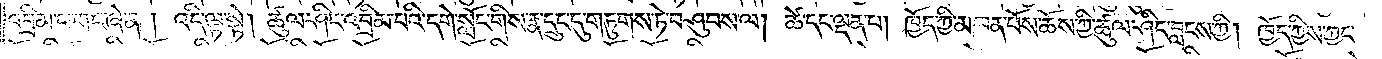འབྲིམ་པ་གང་ཞེ་ན། འདི་ལྟ་སྟེ། ཚུལ་ཤིང་འབྲིམ་པའི་དགེ་སློང་གིས་རྣ་དྲུང་དུ་གཏུགས་ཏེ་བཤུབས་ལ། ཚེ་དང་ལྡན་པ། ཁྱོད་ཀྱི་མཁན་པོས་ཆོས་ཀྱི་ཚུལ་ཤིང་བླངས་ཀྱི། ཁྱོད་ཀྱིས་ཀྱང་
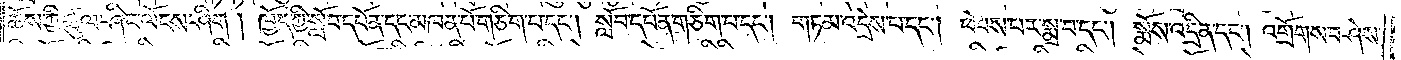ཆོས་ཀྱི་ཚུལ་ཤིང་ལོངས་ཤིག །ཁྱོད་ཀྱི་སློབ་དཔོན་དང་མཁན་པོ་གཅིག་པ་དང༌། སློབ་དཔོན་གཅིག་པ་དང༌། གཏམ་འདྲེས་པ་དང༌། ཕེབས་པར་སྨྲ་བ་དང༌། སྨོས་འདྲིན་དང༌། འགྲོགས་བཤེས་
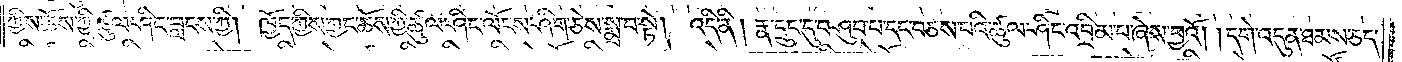ཀྱིས་ཆོས་ཀྱི་ཚུལ་ཤིང་བླངས་ཀྱི། ཁྱོད་ཀྱིས་ཀྱང་ཆོས་ཀྱི་ཚུལ་ཤིང་ལོངས་ཤིག་ཅེས་སྨྲ་བ་སྟེ། འདི་ནི། རྣ་དྲུང་དུ་བཤུབ་པ་དང་བཅས་པའི་ཚུལ་ཤིང་འབྲིམ་པ་ཞེས་བྱའོ། །དགེ་འདུན་ཐམས་ཅད་
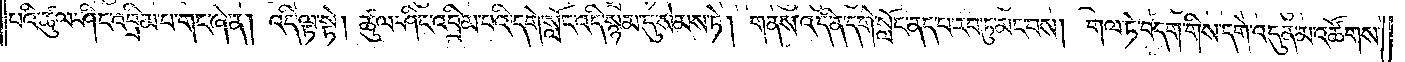པའི་ཚུལ་ཤིང་འབྲིམ་པ་གང་ཞེ་ན། འདི་ལྟ་སྟེ། ཚུལ་ཤིང་འབྲིམ་པའི་དགེ་སློང་འདི་སྙམ་དུ་སེམས་ཏེ། གནས་འདི་ན་དགེ་སློང་ནད་པ་རབ་ཏུ་མང་བས། གལ་ཏེ་བདག་གིས་དགེ་འདུན་མ་འཚོགས་
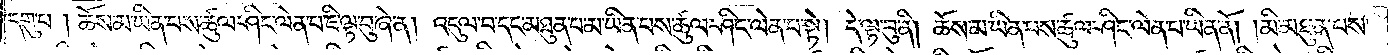དགུ་པ། ཆོས་མ་ཡིན་པས་ཚུལ་ཤིང་ལེན་པ་ཇི་ལྟ་བུ་ཞེ་ན། འདུལ་བ་དང་མཐུན་པ་མ་ཡིན་པས་ཚུལ་ཤིང་ལེན་པ་སྟེ། དེ་ལྟ་བུ་ནི། ཆོས་མ་ཡིན་པས་ཚུལ་ཤིང་ལེན་པ་ཡིན་ནོ། །མི་མཐུན་པས་
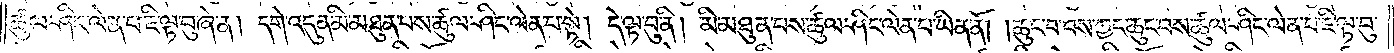ཚུལ་ཤིང་ལེན་པ་ཇི་ལྟ་བུ་ཞེ་ན། དགེ་འདུན་མི་མཐུན་པས་ཚུལ་ཤིང་ལེན་པ་སྟེ། དེ་ལྟ་བུ་ནི། མི་མཐུན་པས་ཚུལ་ཤིང་ལེན་པ་ཡིན་ནོ། །ཆུང་བ་བས་ཀྱང་ཆུང་བས་ཚུལ་ཤིང་ལེན་པ་ཇི་ལྟ་བུ་
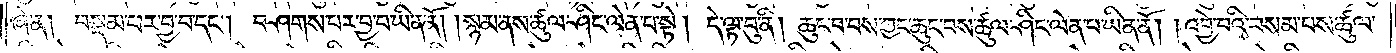ཞེ་ན། བསྡོམ་པར་བྱ་བ་དང༌། བཤགས་པར་བྱ་བ་ཡིན་ནོ། །སྙམ་ནས་ཚུལ་ཤིང་ལེན་པ་སྟེ། དེ་ལྟ་བུ་ནི། ཆུང་བ་བས་ཀྱང་ཆུང་བས་ཚུལ་ཤིང་ལེན་པ་ཡིན་ནོ། །འབྱེ་བའི་བསམ་པས་ཚུལ་
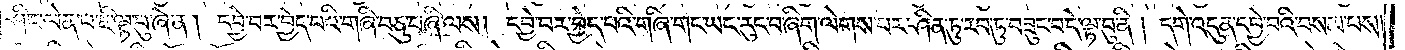ཤིང་ལེན་པ་ཇི་ལྟ་བུ་ཞེ་ན། དབྱེ་བར་བྱེད་པའི་གཞི་བཅུ་བཞི་ལས། དབྱེ་བར་བྱེད་པའི་གཞི་གང་ཡང་རུང་བ་ཞིག་ལེགས་པར་ཤིན་ཏུ་རབ་ཏུ་བཟུང་བ་དེ་ལྟ་བུ་ནི། དགེ་འདུན་དབྱེ་བའི་བསམ་པས།
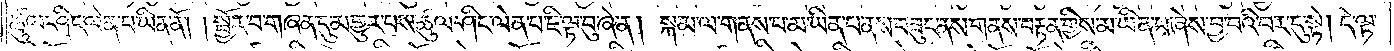ཚུལ་ཤིང་ལེན་པ་ཡིན་ནོ། །སྦྱོར་བ་གཞན་དུ་མ་གྱུར་པས་ཚུལ་ཤིང་ལེན་པ་ཇི་ལྟ་བུ་ཞེ་ན། སྐམ་ལ་གནས་པ་མ་ཡིན་པ་ནས་བཟུང་ནས་གནས་བརྟན་གྱིས་མ་ཡིན་པ་ཞེས་བྱ་བའི་བར་དུ་སྟེ། དེ་ལྟ་
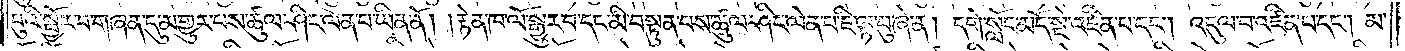བུའི་སྦྱོར་བ་གཞན་དུ་མ་གྱུར་པས་ཚུལ་ཤིང་ལེན་པ་ཡིན་ནོ། །རྟེན་ཁ་ལོ་སྒྱུར་བ་དང་མི་བསྟུན་པས་ཚུལ་ཤིང་ལེན་པ་ཇི་ལྟ་བུ་ཞེ་ན། དགེ་སློང་མདོ་སྡེ་འཛིན་པ་དང༌། འདུལ་བ་འཛིན་པ་དང༌། མ་
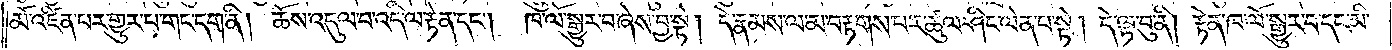མོ་འཛིན་པར་གྱུར་པ་གང་དག་ནི། ཆོས་འདུལ་བ་འདི་ལ་རྟེན་དང༌།<gap>ཁ་ལོ་སྒྱུར་བ་ཞེས་བྱ་སྟེ། དེ་རྣམས་ལ་མ་བརྟགས་པར་ཚུལ་ཤིང་ལེན་པ་སྟེ། དེ་ལྟ་བུ་ནི། རྟེན་ཁ་ལོ་སྒྱུར་བ་དང་མི་
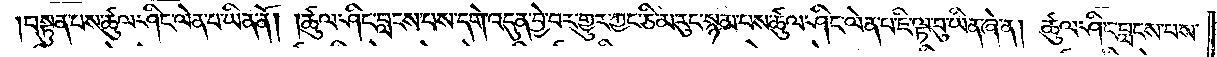བསྟུན་པས་ཚུལ་ཤིང་ལེན་པ་ཡིན་ནོ། །ཚུལ་ཤིང་བླངས་པས་དགེ་འདུན་བྱེ་བར་གྱུར་ཀྱང་ཅི་མ་རུང་སྙམ་པས་ཚུལ་ཤིང་ལེན་པ་ཇི་ལྟ་བུ་ཡིན་ཞེ་ན། ཚུལ་ཤིང་བླངས་པས་
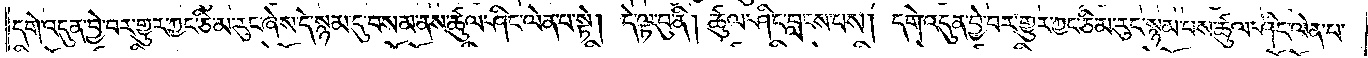དགེ་འདུན་བྱེ་བར་གྱུར་ཀྱང་ཅི་མ་རུང་ཞེས་དེ་སྙམ་དུ་བསམ་ནས་ཚུལ་ཤིང་ལེན་པ་སྟེ། དེ་ལྟ་བུ་ནི། ཚུལ་ཤིང་བླངས་པས། དགེ་འདུན་བྱེ་བར་གྱུར་ཀྱང་ཅི་མ་རུང་སྙམ་པས་ཚུལ་ཤིང་ལེན་པ་
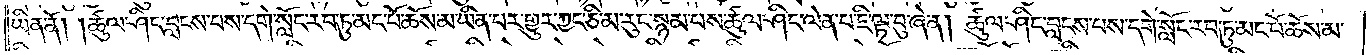ཡིན་ནོ། །ཚུལ་ཤིང་བླངས་པས་དགེ་སློང་རབ་ཏུ་མང་པོ་ཆོས་མ་ཡིན་པར་གྱུར་ཀྱང་ཅི་མ་རུང་སྙམ་པས་ཚུལ་ཤིང་ལེན་པ་ཇི་ལྟ་བུ་ཞེ་ན། ཚུལ་ཤིང་བླངས་པས་དགེ་སློང་རབ་ཏུ་མང་པོ་ཆོས་མ་
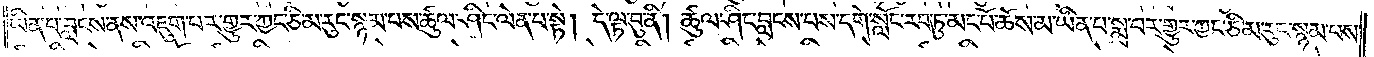ཡིན་པ་བླངས་ནས་འཇུག་པར་གྱུར་ཀྱང་ཅི་མ་རུང་སྙམ་པས་ཚུལ་ཤིང་ལེན་པ་སྟེ། དེ་ལྟ་བུ་ནི། ཚུལ་ཤིང་བླངས་པས་དགེ་སློང་རབ་ཏུ་མང་པོ་ཆོས་མ་ཡིན་པ་སྨྲ་བར་གྱུར་ཀྱང་ཅི་མ་རུང་སྙམ་པས་
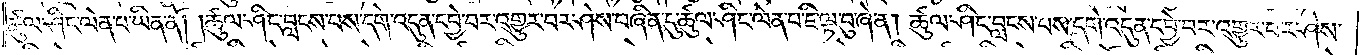ཚུལ་ཤིང་ལེན་པ་ཡིན་ནོ། །ཚུལ་ཤིང་བླངས་པས་དགེ་འདུན་དབྱེ་བར་འགྱུར་བར་ཤེས་པ་བཞིན་དུ་ཚུལ་ཤིང་ལེན་པ་ཇི་ལྟ་བུ་ཞེ་ན། ཚུལ་ཤིང་བླངས་པས་དགེ་འདུན་དབྱེ་བར་འགྱུར་བར་ཤེས་
